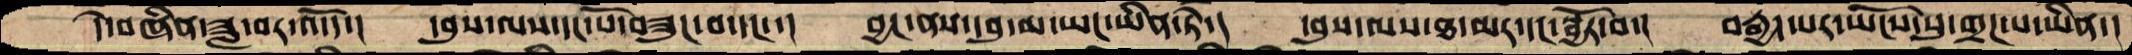དེ་བཞིན་ཟླ་བར་འདོད་།  དབུས་ལས་དང་པོ་བཟུང་བ་དང་་།  བྱང་ནས་དབུ་མ་ཡང་ཡིན་ཏེ་། དབུས་ལས་ཐ་མར་དང་སྦྱོར་བ་།  བརྒྱད་པར་ཡོངས་སུ་གྲཌ་པ་ཡིན་།
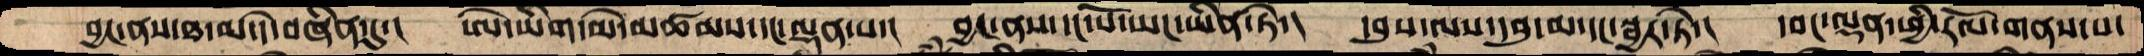བྱང་ནས་ཐ་མ་དེ་བཞིན་དུ་།  ཨེ་ཡིག་མེ་མཚམས་དང་ལྡན་པ་།  བྱང་ནས་དང་པོ་ཡང་ཡིན་ཏེ་།  དབུས་ལས་དབུ་མ་དང་སྦྱར་ཏེ་།  དབང་ལྡན་ཕྱི་རོལ་གནས་པ་
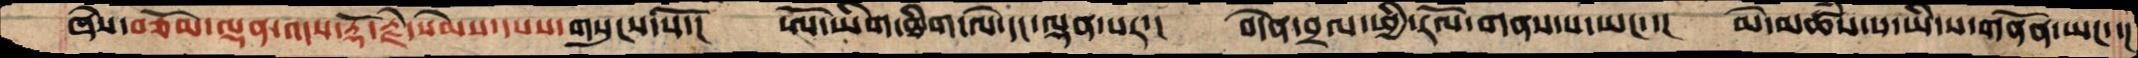ཞེས་བཅོམ་ལྡན་འདས་རྡོ་རྗེ་སེམས་དཔས་གསུངས་སོ་།  ཨོ་ཡིག་ཐིག་ལེ་དང་ལྡན་པར་།  བདེན་བྲལ་ཕྱི་རོལ་གནས་པ་ཡང་་།  མེ་མཚཾས་པ་ཡི་ས་གནོན་ཡང་་།
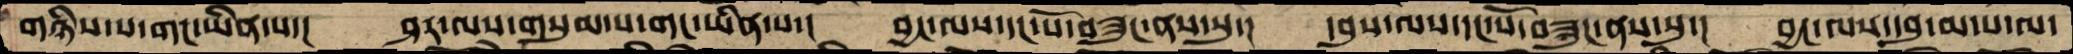གཉིས་པ་གང་ཡིན་པ་།  ཤར་ལས་གསུམ་པ་གང་ཡིན་པ་།  བྱང་ལས་དང་པོ་བཟུང་ནས་སུ་།  དབུས་ལས་དང་པོོ་བཟུང་ནས་སུ་།  བྱང་ལས་དབུ་མ་པ་ལ་
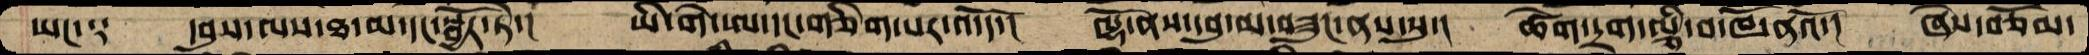ཡང་༑  དབུས་ལས་ཐ་མ་དང་སྦྱོར་ཏེ་།  ཡི་གེ་ཨ་དང་གཅིག་པར་འདོད་།  ལྷོ་ནས་དབུ་མ་བཟུང་ནས་སུ་།  ཚེག་དྲག་ལྕི་བ་ཁོ་ནའོ་།  ཞེས་བཅོམ་
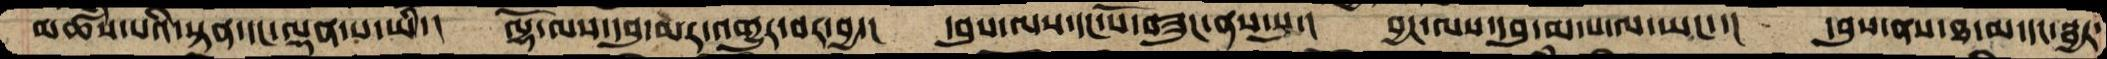མཚཾས་པའི་སྟན་དང་ལྡན་པ་ཡི་།  ལྷོལས་དབུ་མར་འགྱུར་བར་བྱ་།  དབུས་ལས་དང་པོ་བཟུང་ནས་སུ་།  བྱང་ལས་དབུ་མ་པ་ལ་ཡང་་།  དབུས་ནས་ཐ་མ་དང་སྦྱར་
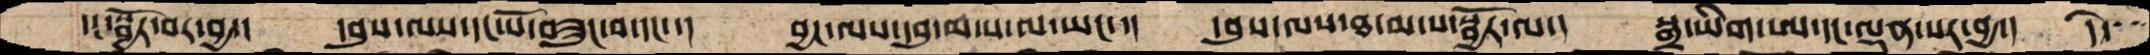དང་སྦྱོར་བར་བྱ་།  དབུས་ལས་དང་པོ་བཟུང་བ་དང་་།  བྱང་ལས་དབུ་མ་པ་ལ་ཡང་་།  དབུས་ལས་ཐ་མ་པ་སྦྱོར་བ་།  སྒྲ་ཡིག་ཨ་དང་ལྡན་པར་བྱ་།  དེ་་་
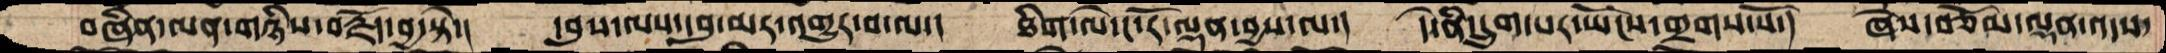བཞིན་ལན་གཉིས་བརྗོད་བྱ་སྟེ་།  དབུས་ལས་དབུ་མར་འགྱུར་བ་ལ་།  ཐིག་ལེ་ང་རོ་ལྡན་བྱས་ལ་།  དེ་ནི་དྲུག་པར་ཡོངས་གྲགས་སོ་།  ཞེས་བཅོམ་ལྡན་འདས་
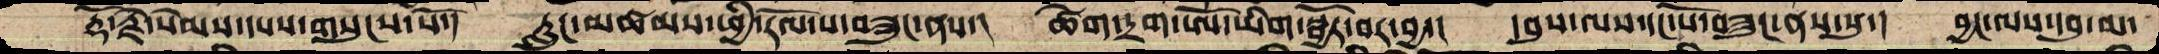རྡོ་རྗེ་སེམས་དཔས་གསུངས་སོ་།  རླུང་མཚམས་ཕྱི་རོལ་པ་བཟུང་ནས་།  ཚེག་དྲག་ཨོ་ཡིག་སྦྱོར་བར་བྱ་།  དབུས་ལས་དང་པོ་བཟུང་ནས་སུ་།  བྱང་ལས་དབུ་མ་
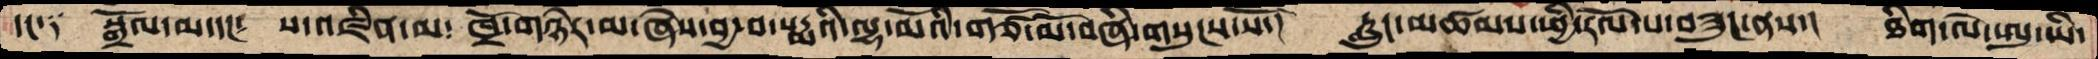དང་༑  སྒྲོལ་མ་དང༴  ས་འཛིན་མ༴ ཁྲོ་གཉེར་མ་ཞེས་བྱ་བ་པདྨའི་ལྷ་མོའི་གཙོ་མོ་བཞི་གསུངས་སོ་།   རླུང་མཚམས་ཕྱི་རོལ་པ་བཟུང་ནས་།  ཐིག་ལེ་ཨུ་ཡི་
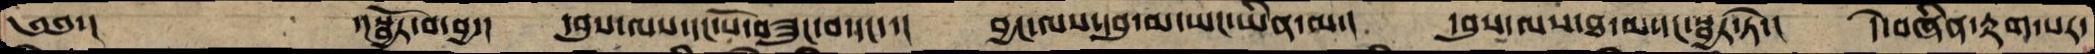༄༅་།         ་།སྦྱོར་བ་བྱ་།  དབུས་ལས་དང་པོ་བཟུང་བ་དང་་།  བྱང་ལས་དབུ་མ་ཡང་ཡིན་ལ་།  དབུས་ལས་ཐ་མ་དང་སྦྱར་ཏེ་།   དེ་བཞིན་རྟག་པར་
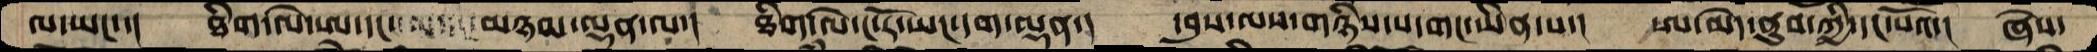ལ་ཡང་་།  ཐིག་ལེ་ཨ་དང་  མཉམ་ལྡན་ལ་།  ཐིག་ལེ་ང་རོ་ཡང་དག་ལྡན་།  དབུས་ལས་གཉིས་པ་གང་ཡིན་པ་།  ཨ་མེད་ནུབ་ཀྱི་དང་པའོ་།  ཞེས་
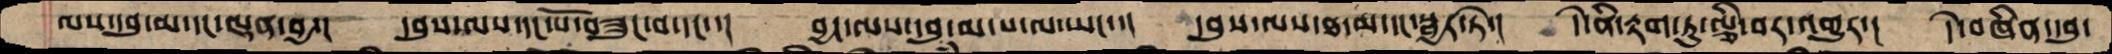ལས་དབུ་མ་དང་ལྡན་བྱ་།  དབུས་ལས་དང་པོ་བཟུང་བ་དང་་།  བྱང་ལས་དབུ་མ་པ་ལ་ཡང་་།  དབུས་ལས་ཐ་མ་དང་སྦྱར་ཏེ་།  དེ་ནི་རྟག་ཏུ་ལྕི་བར་འགྱུར་།  དེ་བཞིན་དབུ་
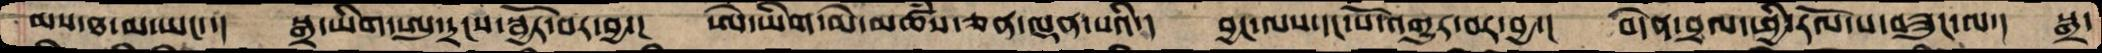མས་ཐ་མ་ཡང་་།  སྒྲ་ཡིག་ཨུ་དྲངས་སྦྱོར་བར་བྱ་།  ཨེ་ཡིག་མེ་མཚཾས་ཅན་ལྡན་པའི་།  བྱང་ལས་དང་པོོ་འགྱུར་བར་བྱ་།  བདེན་བྲལ་ཕྱི་རོལ་པ་བཟུང་ལ་།  སྒྲ་
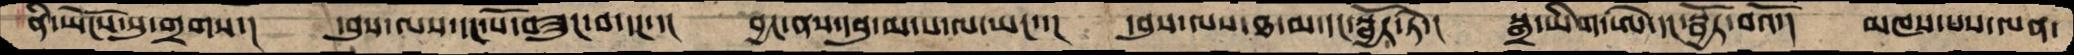ནི་ཡོངས་སུ་གྲགས་།  དབུས་ལས་དང་པོ་བཟུང་བ་དང་་།  བྱང་ནས་དབུ་མ་པ་ལ་ཡང་་།  དབུས་ལས་ཐ་མ་དང་སྦྱོར་ཏེ་།  སྒྲ་ཡིག་ཨེ་དང་སྦྱོར་བའོ་།  མཁས་པས་ལན་
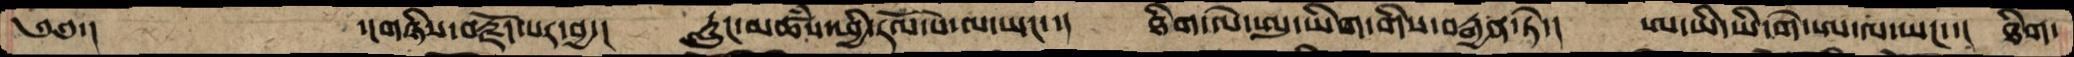༄༅་།    ་།གཉིས་བརྗོད་པར་བྱ་།  རླུང་མཚཾས་ཕྱི་རོལ་པ་ལ་ཡང་་།  ཐིག་ལེ་ཨུ་ཡིག་གིས་བརྒྱན་ཏེ་།  ཨ་ཡི་ཡི་གེ་ཨ་ལ་ཡང་་།  ཐིག་
